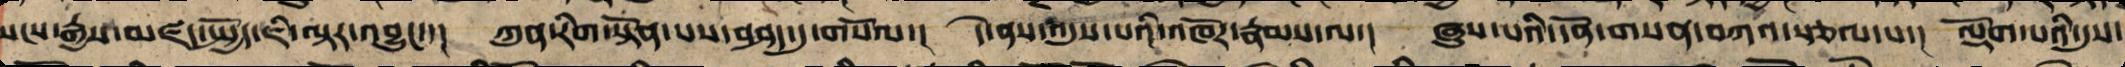སངས་རྒྱས་མཛད་སྤྱོད་ཇི་ལྟར་འབྱུང་་། ཀུན་རིག་སྟོན་པས་བཤད་དུ་གསོལ་། དེ་ནས་འདུས་པའི་འཁོར་རྣམས་ལ་། ཞུས་པའི་དོན་གསན་བཀའ་སྩལ་པ་། ལྡོག་པའི་དུས་
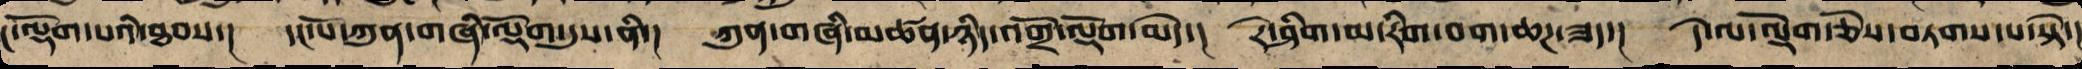ང་ལྡོག་པའི་ཐབས་། དང་པོ་ཀུན་གཞི་ལྡོག་དུས་ནི་། ཀུན་གཞི་མཚན་ཉིད་འགྲོ་ལྡོག་མེད་། རེ་ཤིག་མ་རིག་བག་ཆཌ་ཟད་། དེ་ལ་ལྡོག་ཅེས་བཏགས་པ་སྟེ་།
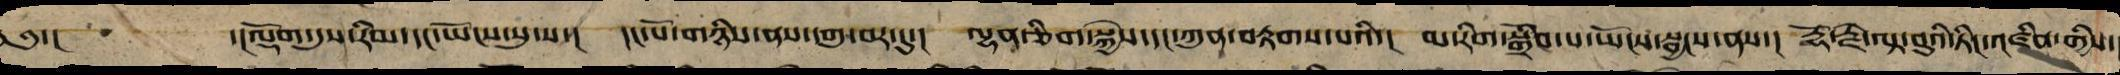༄༅་། ་།ལྡོག་དུས་རིམ་དང་ཡོངས་སུ་ས་། དང་པོ་གཉིས་ནས་དགུ་བར་དུ་། ལྷན་ཅིག་སྐྱེས་དང་ཀུན་བརྟགས་པའི་། མ་རིག་སྒྲིབ་པ་ཡོངས་སྦྱངས་ནས་། རྡོ་རྗེ་ལྟ་བུའི་ཏིང་འཛིན་གྱིས་
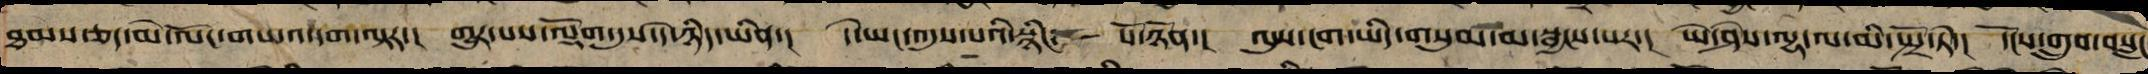ཐམས་ཅད་མེ་ལོང་གཡའ་དག་ལྟར་། གྱུར་པས་ལྡོག་དུས་དེ་ཉིད་ཡིན་། དེ་ཡང་འདུས་པའི་སྙིང་པོ་ཉོན་། ལུས་ངག་ཡིད་གསུམ་མ་སྦྱངས་པར་། ཡེ་ཤེས་ལྷ་ལ་མི་སྤྲོ་ཏེ་། དངོས་གྲུབ་བསླང
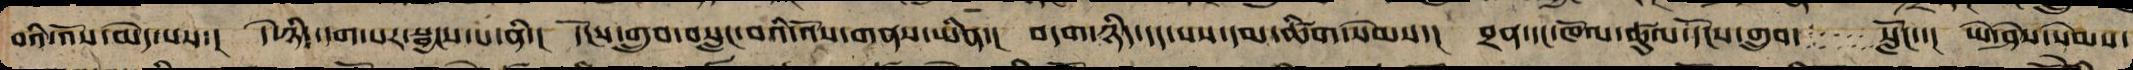བའི་འོས་མེད་པས་། དེ་ཉིད་དག་པར་སྦྱངས་པ་ནི་། དངོས་གྲུབ་བསླང་བའི་འོས་གནས་ཡིན་། བདག་ཉིད་དག་པས་དམ་ཚིག་སེམས་། བྲན་དང་ཁོལ་ཚུལ་དངོས་གྲུབ་སློང་་།། ཡེ་ཤེས་སེམས་
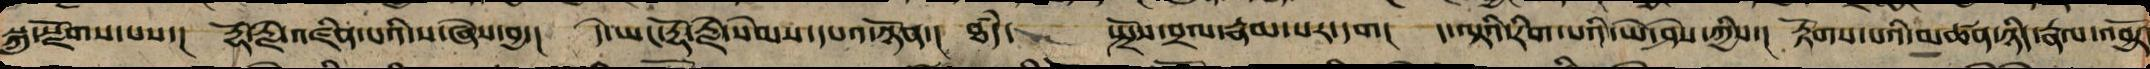སྐུར་སྫོགས་པས་། རྡོ་རྗེ་འཛིན་པའི་ས་ཞེས་བྱ་། དེ་ཡང་རྡོ་རྗེ་སེམས་དཔའ་ཉོན་། ཐཾད་སྤྲོས་བྲལ་རྣམ་པར་དག། ད་ལྟའི་རིག་པའི་ཡེ་ཤེས་འདི་། རྟོགས་པའི་མཚན་ཉིད་རྣལ་འབྱོར
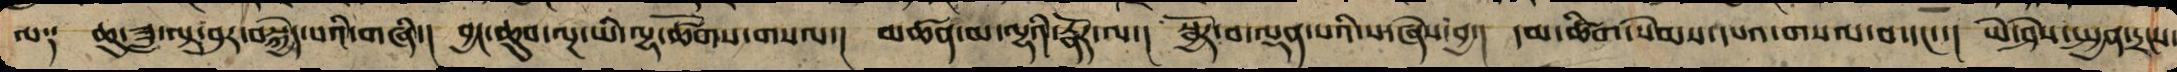ལ༑ ཆུ་ཟླ་ལྟ་བུར་བསྐྱེད་པའི་གཞི་། བྱང་ཆུབ་ལྔ་ཡི་ལྷ་ཚོགས་གསལ་། མཚན་མ་ལྷའི་རྣལ་འབྱོར་ལ་། སྦྱོར་བ་ལྡན་པའི་ས་ཞེས་བྱ་། དམ་ཚིག་སེམས་དཔར་གསལ་བ་ལ་། ཡེ་ཤེས་སྤྱན་དྲངས་
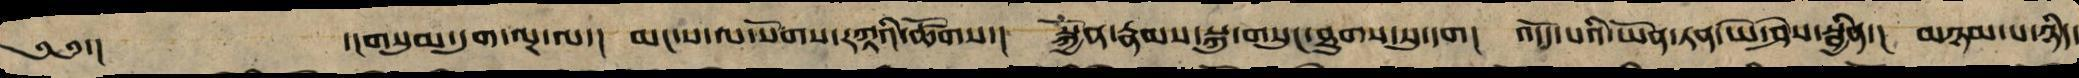༄༅་། ་།གསུམ་དུག་ལྔ་དང་། མང་ས་ལ་སོགས་རཀྟའི་ཚོགས་། སྐྱོན་རྣམས་སྐུ་གསུང་ཐུགས་སུ་དག། འདོད་པའི་ཡོན་ཏན་ཡེ་ཤེས་སྦྱིན་། མཉམ་པ་ཉིད་
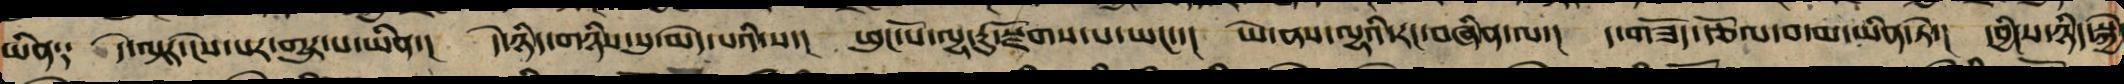ཡིན༑ དེ་ལྟར་ངེས་པར་གྱུར་པ་ནི་། དེ་ཉིད་གཉིས་སུ་མེད་པའི་ས་། ཕུང་པོ་ལྷ་རུ་སྫོགས་པ་ཡང་་། ཡེ་ནས་ལྷ་ཡི་རང་བཞིན་ལ་། ད་གཟོད་རྩོལ་བ་མ་ཡིན་ཏེ་། དབྱིངས་ཉིད་སྐྱེ
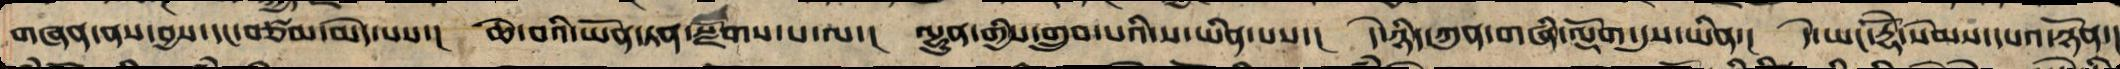གཞན་ནས་བྱས་དང་བཙམ་མེད་པས་། ཆེ་བའི་ཡོན་ཏན་སྫོགས་པ་ལ་། ལྷུན་གྱིས་གྲུབ་པའི་ས་ཡིན་པས་། དེ་ཉིད་ཀུན་གཞི་ལྡོག་དུས་ཡིན་། དེ་ཡང་རྡོེ་སེམས་དཔའ་ཉོན་།
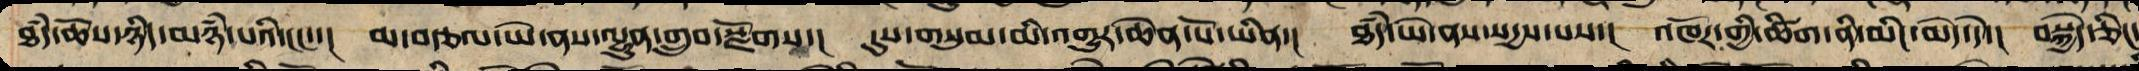ཐཾད་ཆོས་ཉིད་མཉཾ་པའི་ངང་་། མ་བརྩལ་ཡེ་ནས་ལྷུན་གྲུབ་སྫོགས་། དུས་གསུམ་མི་འགྱུར་ཆེན་པོ་ཡིན་། ཐཾད་ཡེ་ནས་སདྱས་པས་། འཁོར་གྱི་ཚིག་ནི་མིང་མེད་ཏེ་། བསྐྱེད་ཅིང་
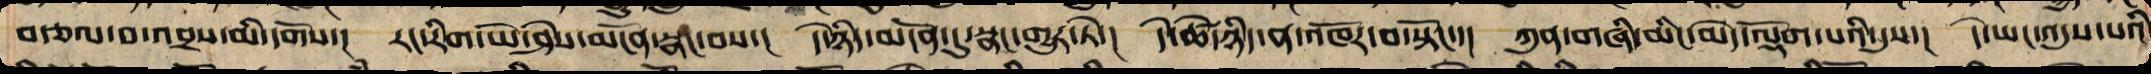བརྩལ་བས་འབྲས་མི་དགོས་། རང་རིག་ཡེ་ཤེས་མངོན་སྣང་བས་། དེ་ཉིད་མངོན་དུ་སྣང་གྱུར་ཏེ་། དེ་ཚེ་ཉིད་ན་འཁོར་བ་སྟོང་་། ཀུན་གཞི་མིང་མེད་ལྡོག་པའི་དུས་། དེ་ཡང་འདུས་པའི
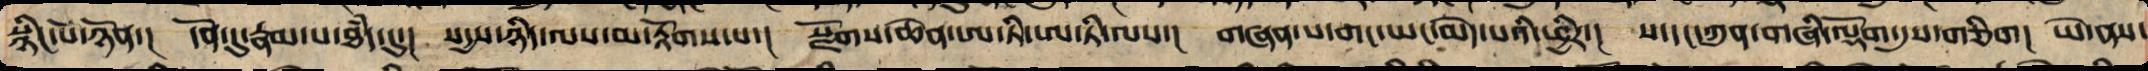སྙིང་པོ་ཉོན་། དོན་དུ་རྣམ་པ་ཐཾད་དུ་། སདྱས་ཉིད་ལས་མ་རྟོགས་པ་། སྫོགས་ཆེན་ཨ་ཏི་ཨ་ཏི་ལ་། གཞན་པ་གང་ཡང་མེད་པའི་ཕྱིར་། ས་དང་ཀུན་གཞི་ལྡོག་དུས་གཅིག། ཡེ་ནས་
